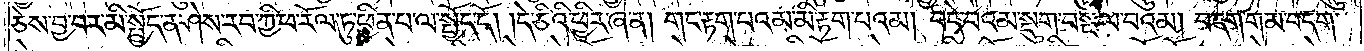ཅེས་བྱ་བར་མི་སྤྱོད་ན་ཤེས་རབ་ཀྱི་ཕ་རོལ་ཏུ་ཕྱིན་པ་ལ་སྤྱོད་དོ། །དེ་ཅིའི་ཕྱིར་ཞེ་ན། གང་རྟག་པའམ་མི་རྟག་པའམ། བདེ་བའམ་སྡུག་བསྔལ་བའམ། བདག་གམ་བདག་
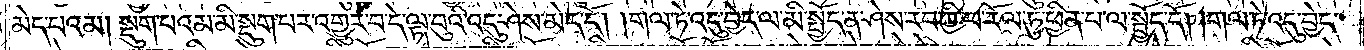མེད་པའམ། སྡུག་པའམ་མི་སྡུག་པར་འགྱུར་བ་དེ་ལྟ་བུའི་འདུ་ཤེས་མེད་དོ། །གལ་ཏེ་འདུ་བྱེད་ལ་མི་སྤྱོད་ན་ཤེས་རབ་ཀྱི་ཕ་རོལ་ཏུ་ཕྱིན་པ་ལ་སྤྱོད་དོ། །གལ་ཏེ་འདུ་བྱེད་
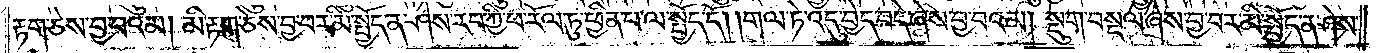རྟག་ཅེས་བྱ་བའམ། མི་རྟག་ཅེས་བྱ་བར་མི་སྤྱོད་ན་ཤེས་རབ་ཀྱི་ཕ་རོལ་ཏུ་ཕྱིན་པ་ལ་སྤྱོད་དོ། །གལ་ཏེ་འདུ་བྱེད་བདེ་ཞེས་བྱ་བའམ། སྡུག་བསྔལ་ཞེས་བྱ་བར་མི་སྤྱོད་ན་ཤེས་
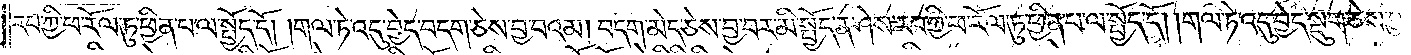རབ་ཀྱི་ཕ་རོལ་ཏུ་ཕྱིན་པ་ལ་སྤྱོད་དོ། །གལ་ཏེ་འདུ་བྱེད་བདག་ཅེས་བྱ་བའམ། བདག་མེད་ཅེས་བྱ་བར་མི་སྤྱོད་ན་ཤེས་རབ་ཀྱི་ཕ་རོལ་ཏུ་ཕྱིན་པ་ལ་སྤྱོད་དོ། །གལ་ཏེ་འདུ་བྱེད་སྡུག་ཅེས་བྱ་
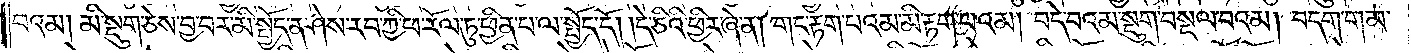བའམ། མི་སྡུག་ཅེས་བྱ་བར་མི་སྤྱོད་ན་ཤེས་རབ་ཀྱི་ཕ་རོལ་ཏུ་ཕྱིན་པ་ལ་སྤྱོད་དོ། །དེ་ཅིའི་ཕྱིར་ཞེ་ན། གང་རྟག་པའམ་མི་རྟག་པའམ། བདེ་བའམ་སྡུག་བསྔལ་བའམ། བདག་གམ་
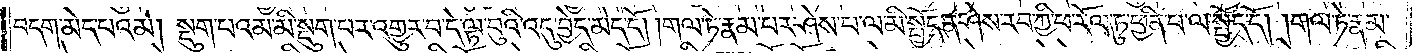བདག་མེད་པའམ། སྡུག་པའམ་མི་སྡུག་པར་འགྱུར་བ་དེ་ལྟ་བུའི་འདུ་བྱེད་མེད་དོ། །གལ་ཏེ་རྣམ་པར་ཤེས་པ་ལ་མི་སྤྱོད་ན་ཤེས་རབ་ཀྱི་ཕ་རོལ་ཏུ་ཕྱིན་པ་ལ་སྤྱོད་དོ། །གལ་ཏེ་རྣམ་
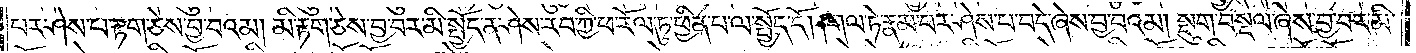པར་ཤེས་པ་རྟག་ཅེས་བྱ་བའམ། མི་རྟག་ཅེས་བྱ་བར་མི་སྤྱོད་ན་ཤེས་རབ་ཀྱི་ཕ་རོལ་ཏུ་ཕྱིན་པ་ལ་སྤྱོད་དོ། །གལ་ཏེ་རྣམ་པར་ཤེས་པ་བདེ་ཞེས་བྱ་བའམ། སྡུག་བསྔལ་ཞེས་བྱ་བར་མི་
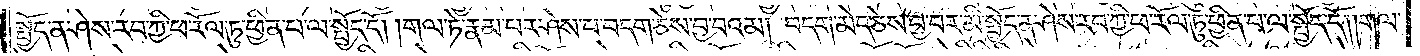སྤྱོད་ན་ཤེས་རབ་ཀྱི་ཕ་རོལ་ཏུ་ཕྱིན་པ་ལ་སྤྱོད་དོ། །གལ་ཏེ་རྣམ་པར་ཤེས་པ་བདག་ཅེས་བྱ་བའམ། བདག་མེད་ཅེས་བྱ་བར་མི་སྤྱོད་ན་ཤེས་རབ་ཀྱི་ཕ་རོལ་ཏུ་ཕྱིན་པ་ལ་སྤྱོད་དོ། །གལ་
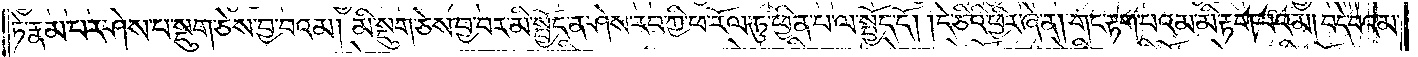ཏེ་རྣམ་པར་ཤེས་པ་སྡུག་ཅེས་བྱ་བའམ། མི་སྡུག་ཅེས་བྱ་བར་མི་སྤྱོད་ན་ཤེས་རབ་ཀྱི་ཕ་རོལ་ཏུ་ཕྱིན་པ་ལ་སྤྱོད་དོ། །དེ་ཅིའི་ཕྱིར་ཞེ་ན། གང་རྟག་པའམ་མི་རྟག་པའམ། བདེ་བའམ་
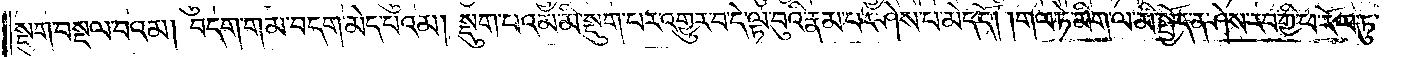སྡུག་བསྔལ་བའམ། བདག་གམ་བདག་མེད་པའམ། སྡུག་པའམ་མི་སྡུག་པར་འགྱུར་བ་དེ་ལྟ་བུའི་རྣམ་པར་ཤེས་པ་མེད་དོ། །གལ་ཏེ་མིག་ལ་མི་སྤྱོད་ན་ཤེས་རབ་ཀྱི་ཕ་རོལ་ཏུ་
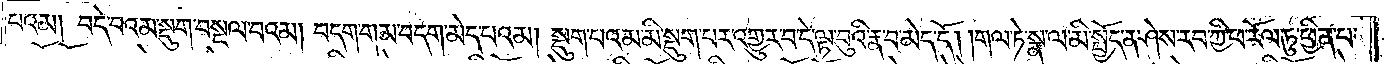པའམ། བདེ་བའམ་སྡུག་བསྔལ་པའམ། བདག་གམ་བདག་མེད་པའམ། སྡུག་པའམ་མི་སྡུག་པར་འགྱུར་བ་དེ་ལྟ་བུའི་རྣ་བ་མེད་དོ། །གལ་ཏེ་སྣ་ལ་མི་སྤྱོད་ན་ཤེས་རབ་ཀྱི་ཕ་རོལ་ཏུ་ཕྱིན་པ་
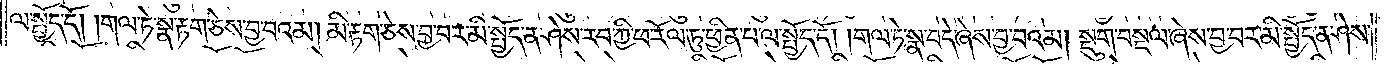ལ་སྤྱོད་དོ། །གལ་ཏེ་སྣ་རྟག་ཅེས་བྱ་བའམ། མི་རྟག་ཅེས་བྱ་བར་མི་སྤྱོད་ན་ཤེས་རབ་ཀྱི་ཕ་རོལ་ཏུ་ཕྱིན་པ་ལ་སྤྱོད་དོ། །གལ་ཏེ་སྣ་བདེ་ཞེས་བྱ་བའམ། སྡུག་བསྔལ་ཞེས་བྱ་བར་མི་སྤྱོད་ན་ཤེས་
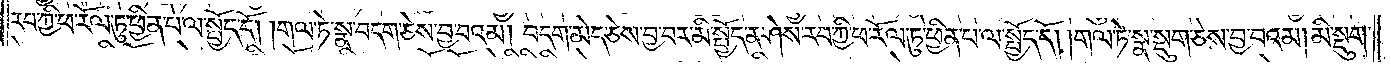རབ་ཀྱི་ཕ་རོལ་ཏུ་ཕྱིན་པ་ལ་སྤྱོད་དོ། །གལ་ཏེ་སྣ་བདག་ཅེས་བྱ་བའམ། བདག་མེད་ཅེས་བྱ་བར་མི་སྤྱོད་ན་ཤེས་རབ་ཀྱི་ཕ་རོལ་ཏུ་ཕྱིན་པ་ལ་སྤྱོད་དོ། །གལ་ཏེ་སྣ་སྡུག་ཅེས་བྱ་བའམ། མི་སྡུག་
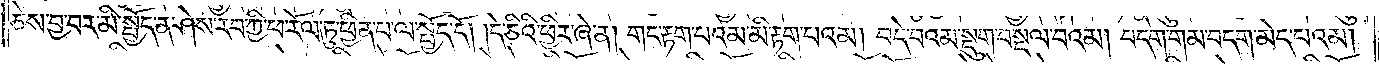ཅེས་བྱ་བར་མི་སྤྱོད་ན་ཤེས་རབ་ཀྱི་ཕ་རོལ་ཏུ་ཕྱིན་པ་ལ་སྤྱོད་དོ། །དེ་ཅིའི་ཕྱིར་ཞེ་ན། གང་རྟག་པའམ་མི་རྟག་པའམ། བདེ་བའམ་སྡུག་བསྔལ་བའམ། བདག་གམ་བདག་མེད་པའམ།
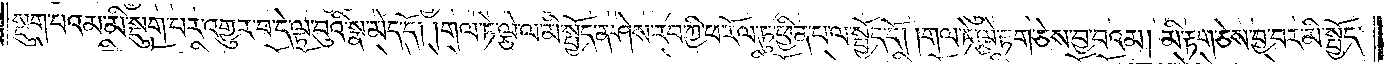སྡུག་པའམ་མི་སྡུག་པར་འགྱུར་བ་དེ་ལྟ་བུའི་སྣ་མེད་དོ། །གལ་ཏེ་ལྕེ་ལ་མི་སྤྱོད་ན་ཤེས་རབ་ཀྱི་ཕ་རོལ་ཏུ་ཕྱིན་པ་ལ་སྤྱོད་དོ། །གལ་ཏེ་ལྕེ་རྟག་ཅེས་བྱ་བའམ། མི་རྟག་ཅེས་བྱ་བར་མི་སྤྱོད་
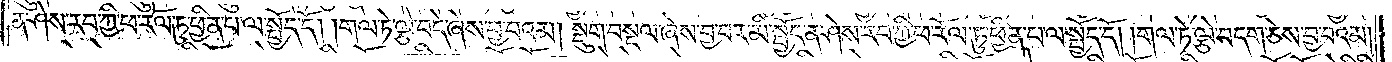ན་ཤེས་རབ་ཀྱི་ཕ་རོལ་ཏུ་ཕྱིན་པ་ལ་སྤྱོད་དོ། །གལ་ཏེ་ལྕེ་བདེ་ཞེས་བྱ་བའམ། སྡུག་བསྔལ་ཞེས་བྱ་བར་མི་སྤྱོད་ན་ཤེས་རབ་ཀྱི་ཕ་རོལ་ཏུ་ཕྱིན་པ་ལ་སྤྱོད་དོ། །གལ་ཏེ་ལྕེ་བདག་ཅེས་བྱ་བའམ།
